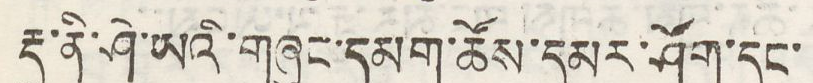རྡུ་ནི་ཤེ་ཨའི་གཞུང་དམག་ཚོས་དམར་ཤོག་དང་
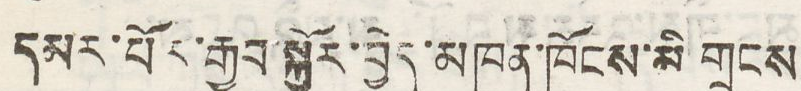དམར་པོར་རྒྱབ་སྐྱོར་བྱེད་མཁན་ཁོངས་མི་གྲངས
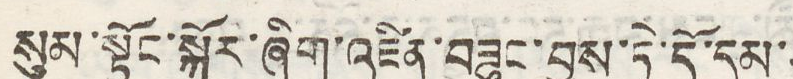སུམ་སྟོང་སྐོར་ཞིག་འཛིན་ཟུང་བྱས་ཏེ་དོ་དམ་
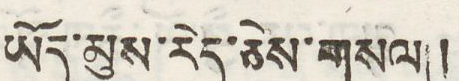ཡོད་མུས་རེད་ཅེས་གསལ།།
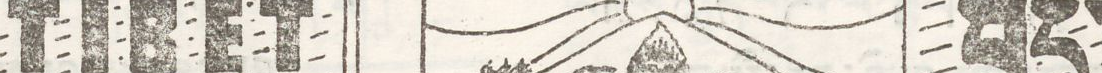TIBET བོད་
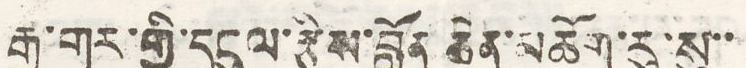རྒྱ་གར་གྱི་དངུལ་རྩིས་བློན ཆེན་མཆོག་རུ་སུ་་
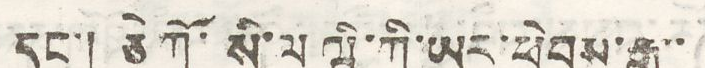དང་། ཅེ ཀོ་སི་ལ ཝི་ཀི་ཡར་ཕེབས་རྒྱུ་་
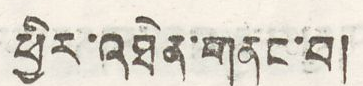ཕྱིར་འཐེན་གནང་བ།
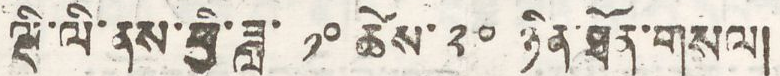ལྡི་ལི་ནས་ཕྱི་ཟླ་ ༡༠ ཚེས་ ༢༠ ཉིན་ཐོན་གསལ།
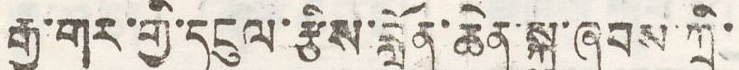རྒྱ་གར་གྱི་དངུལ་རྩིས་བློན་ཆེན་སྐུ་ཞབས་ཀྲི་
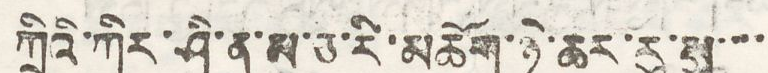ཀྲིའི་ཀིར་ཤི་ན་མ་ཅ་རི་མཆོག་ཉེ་ཆར་རུ་སུ་་་་
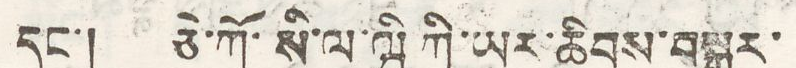དང་། ཅེ་ཀོ་སི་ལ་ཝི ཀི་ཡར་ཆིབས་བསྒྱུར་
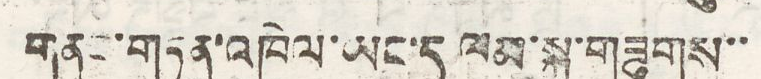གནང་གཏན་འཁེལ་ཡང་ད་ལམ་སྐུ་གཟུགས་་
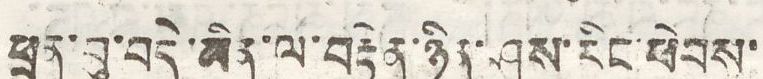ཕྲན་བུ་བདེ་མིན་ལ་བརྟེན་ཉིན་ཤས་རིང་ཕེབས་
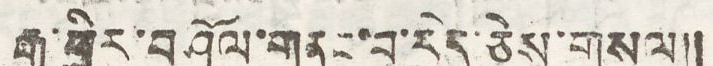རྒྱུ་ཕྱིར་བཤོལ་གནང་བ་རེད་ཅེས་གསལ།།
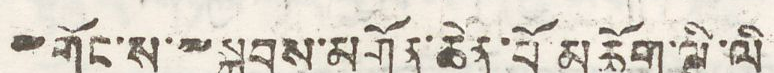༸གོང་ས་༸སྐྱབས་མགོན་ཆེན་པོ མཆོག་ལྡི་ལི
